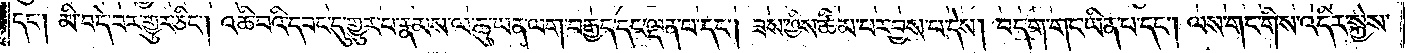དང༌། མི་བདེ་བར་གྱུར་ཅིང༌། འཆི་བའི་དབང་དུ་གྱུར་པ་རྣམས་ལ་ཆུ་ཡན་ལག་བརྒྱད་དང་ལྡན་པ་དང༌། ཟས་ཀྱིས་ཚིམ་པར་བྱས་པ་དེས། བདག་གང་ཡིན་པ་དང༌། ལས་གང་གིས་འདིར་སྐྱེས་
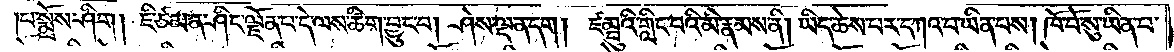།པ་སྨྲོས་ཤིག། ཇི་ཙམ་ན་ཤིང་ལྗོན་པ་དེ་ལས་ཚིག་བྱུང་བ། ཤེས་ལྡན་དག། ཛམྦུའི་གླིང་པའི་མི་རྣམས་ནི། ཡིད་ཆེས་པར་དཀའ་བ་ཡིན་པས། ཁོ་བོ་སུ་ཡིན་པ་
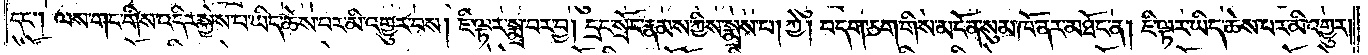དང༌། ལས་གང་གིས་འདིར་སྐྱེས་པ་ཡིད་ཆེས་པར་མི་འགྱུར་བས། ཇི་ལྟར་སྨྲ་བར་བྱ། དྲང་སྲོང་རྣམས་ཀྱིས་སྨྲས་པ། ཀྱེ། བདག་ཅག་གིས་མངོན་སུམ་ཁོ་ནར་མཐོང་ན། ཇི་ལྟར་ཡིད་ཆེས་པར་མི་འགྱུར།
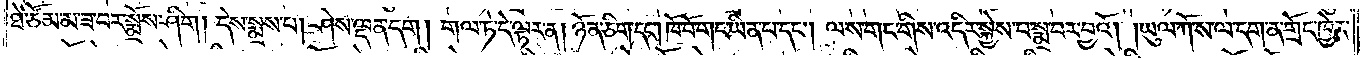ཐེ་ཙོམ་མ་ཟ་བར་སྨྲོས་ཤིག། དེས་སྨྲས་པ། ཤེས་ལྡན་དག། གལ་ཏེ་དེ་ལྟར་ན། ཉོན་ཅིག་དང༌། ཁོ་བོ་གང་ཡིན་པ་དང༌། ལས་གང་གིས་འདིར་སྐྱེས་པ་སྨྲ་བར་བྱའོ། །ཡུལ་ཀོ་ས་ལ་དག་ན་གྲོང་ཁྱེར་
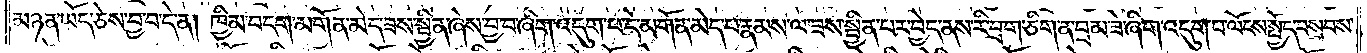མཉན་ཡོད་ཅེས་བྱ་བ་དེ་ན། ཁྱིམ་བདག་མགོན་མེད་ཟས་སྦྱིན་ཞེས་བྱ་བ་ཞིག་འདུག་པ་དེ་མགོན་མེད་པ་རྣམས་ལ་ཟས་སྦྱིན་པར་བྱེད་ནས་རི་བྲག་ཅིག་ན་བྲམ་ཟེ་ཞིག་འདུག་པ་ལོངས་སྤྱོད་བསྲབས་
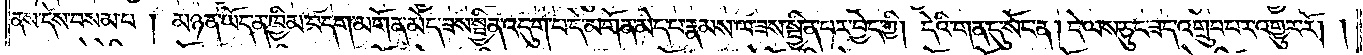ནས་དེས་བསམ་པ། མཉན་ཡོད་ན་ཁྱིམ་བདག་མགོན་མེད་ཟས་སྦྱིན་འདུག་པ་དེ་མགོན་མེད་པ་རྣམས་ལ་ཟས་སྦྱིན་པར་བྱེད་ཀྱི། དེའི་གན་དུ་སོང་ན། དེ་ལས་ཅུང་ཟད་འགྲུབ་པར་འགྱུར་རོ། །
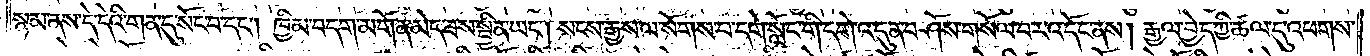སྙམ་ནས་དེ་དེའི་གན་དུ་སོང་བ་དང༌། ཁྱིམ་བདག་མགོན་མེད་ཟས་སྦྱིན་ཡང༌། སངས་རྒྱས་ལ་སོགས་པ་དགེ་སློང་གི་དགེ་འདུན་བཤོས་གསོལ་བར་འདོང་ནས། རྒྱལ་བྱེད་ཀྱི་ཚལ་དུ་འཕགས་
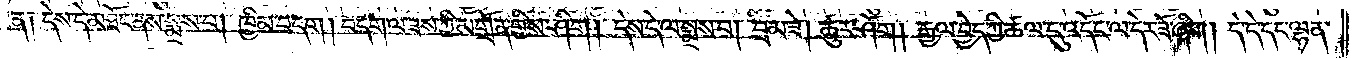ན༑ དེས་དེ་མཐོང་ནས་སྨྲས་པ། ཁྱིམ་བདག། བདག་ལ་ཟས་ཀྱི་མགྲོན་གྱིས་ཤིག། དེས་དེ་ལ་སྨྲས་པ། བྲམ་ཟེ། ཚུར་ཤོག། རྒྱལ་བྱེད་ཀྱི་ཚལ་དུ་འདོང་ལ་དེར་ཟོ་ཞིག། ད་དེ་དང་ལྷན་
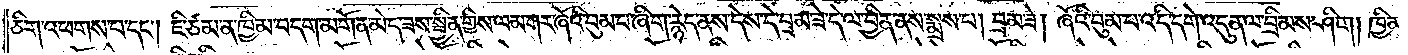ཅིག་འཕགས་པ་དང༌། ཇི་ཙམ་ན་ཁྱིམ་བདག་མགོན་མེད་ཟས་སྦྱིན་གྱིས་ལམ་གར་ཞོའི་བུམ་པ་ཞིག་རྙེད་ནས་དེས་དེ་བྲམ་ཟེ་དེ་ལ་བྱིན་ནས་སྨྲས་པ། བྲམ་ཟེ། ཞོའི་བུམ་པ་འདི་དགེ་འདུན་ལ་བྲིམས་ཤིག། ཁྱིམ་
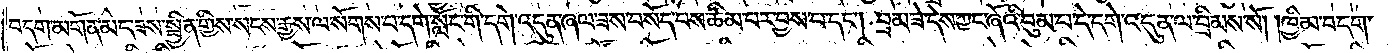བདག་མགོན་མེད་ཟས་སྦྱིན་གྱིས་སངས་རྒྱས་ལ་སོགས་པ་དགེ་སློང་གི་དགེ་འདུན་ཞལ་ཟས་བསོད་པས་ཚིམ་པར་བྱས་པ་དང༌། བྲམ་ཟེ་དེས་ཀྱང་ཞོའི་བུམ་པ་དེ་དགེ་འདུན་ལ་བྲིམས་སོ། །ཁྱིམ་བདག་
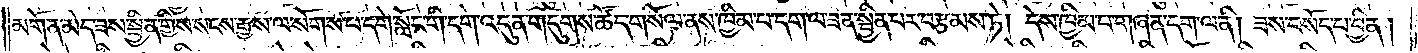མགོན་མེད་ཟས་སྦྱིན་གྱིས་སངས་རྒྱས་ལ་སོགས་པ་དགེ་སློང་གི་དགེ་འདུན་གདུགས་ཚོད་གསོལ་ནས་ཁྱིམ་པ་དག་ལ་ཟན་སྦྱིན་པར་བརྩམས་ཏེ། དེས་ཁྱིམ་པ་གཞན་དག་ལ་ནི། ཟས་བསོད་པ་བྱིན།
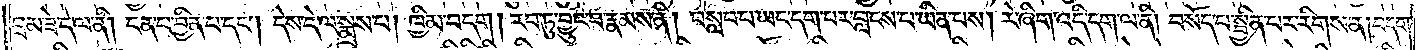བྲམ་ཟེ་དེ་ལ་ནི། ངན་པ་བྱིན་པ་དང༌། དེས་དེ་ལ་སྨྲས་པ། ཁྱིམ་བདག། རབ་ཏུ་བྱུང་བ་རྣམས་ནི། བསླབ་པ་ཡང་དག་པར་བླངས་པ་ཡིན་པས། རེ་ཞིག་འདི་དག་ལ་ནི། བསོད་པ་སྦྱིན་པར་རིགས་ན། བདག་
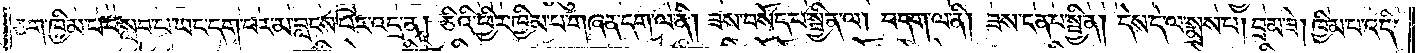ཅག་ཁྱིམ་པ་བསླབ་པ་ཡང་དག་པར་མ་བླངས་པར་འདྲ་ན། ཅིའི་ཕྱིར་ཁྱིམ་པ་གཞན་དག་ལ་ནི། ཟས་བསོད་པ་བྱིན་ལ། བདག་ལ་ནི། ཟས་ངན་པ་སྦྱིན། དེས་དེ་ལ་སྨྲས་པ། བྲམ་ཟེ། ཁྱིམ་པ་འདི་
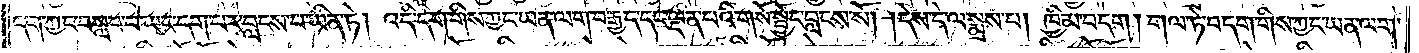དག་ཀྱང་བསླབ་པ་ཡང་དག་པར་བླངས་པ་ཡིན་ཏེ། འདི་དག་གིས་ཀྱང་ཡན་ལག་བརྒྱད་དང་ལྡན་པའི་གསོ་སྦྱོང་བླངས་སོ། །དེས་དེ་ལ་སྨྲས་པ། ཁྱིམ་བདག། གལ་ཏེ་བདག་གིས་ཀྱང་ཡན་ལག་
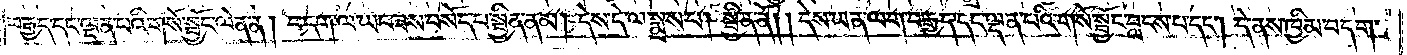བརྒྱད་དང་ལྡན་པའི་གསོ་སྦྱོང་ལེན་ན། བདག་ལ་ཡང་ཟས་བསོད་པ་སྦྱིན་ནམ། དེས་དེ་ལ་སྨྲས་པ། སྦྱིན་ནོ། །དེས་ཡན་ལག་བརྒྱད་དང་ལྡན་པའི་གསོ་སྦྱོང་བླངས་པ་དང༌། དེ་ནས་ཁྱིམ་བདག་
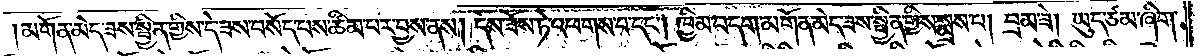མགོན་མེད་ཟས་སྦྱིན་གྱིས་དེ་ཟས་བསོད་པས་ཚིམ་པར་བྱས་ནས། དེས་ཟོས་ཏེ་འཕགས་པ་དང༌། ཁྱིམ་བདག་མགོན་མེད་ཟས་སྦྱིན་གྱིས་སྨྲས་པ། བྲམ་ཟེ། ཡུད་ཙམ་ཞིག་
